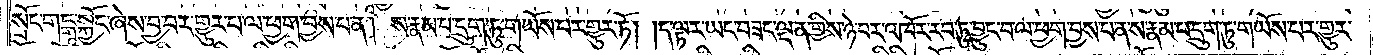སྲོང་གངྒཱ་སྐྱོང་ཞེས་བྱ་བར་གྱུར་པ་ལ་ཕྱག་བྱས་པ་ན། ས་རྣམ་པ་དྲུག་ཏུ་གཡོས་པར་གྱུར་ཏོ། །ད་ལྟར་ཡང་བཟང་ལྡན་གྱིས་ཉེ་བར་འཁོར་རབ་ཏུ་བྱུང་བ་ལ་ཕྱག་བྱས་པ་ན་ས་རྣམ་པ་དྲུག་ཏུ་གཡོས་པར་གྱུར་
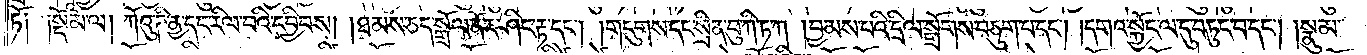ཏོ༑    ༑སྡོམ་ལ། ཀོའུ་ཌིནྱ་དང་རིལ་བའི་དབྱིབས། །ཐམས་ཅད་སྒྲོལ་ནོར་ཤིང་རྟ་དང༌། །གདུགས་དང་སྲིན་བུ་ཀི་ཏ་ཀ །བྱམས་པའི་དྲིལ་སྒྲོགས་བཅུག་པ་དང༌། །དགའ་སྐྱོང་ལ་དུ་བཏུང་བ་དང༌། །སྣུམ་
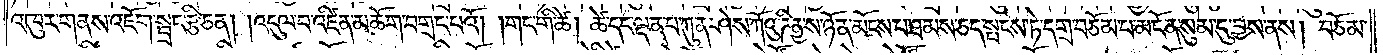འཁུར་གནས་འཇོག་སྦྲང་རྩི་ཅན། །འདུལ་བ་འཛིན་མཆོག་བགྲང་པའོ། །གང་གི་ཚེ། ཚེ་དང་ལྡན་པ་ཀུན་ཤེས་ཀོའུ་ཌིནྱ་ས་ཉོན་མོངས་པ་ཐམས་ཅད་སྤངས་ཏེ་དགྲ་བཅོམ་པ་མངོན་སུམ་དུ་བྱས་ནས། བཅོམ་
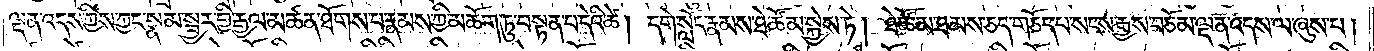ལྡན་འདས་ཀྱིས་ཀྱང་སྣམ་སྦྱར་གྱི་རྒྱལ་མཚན་ཐོགས་པ་རྣམས་ཀྱི་མཆོག་ཏུ་བསྟན་པ་དེའི་ཚེ། དགེ་སློང་རྣམས་ཐེ་ཚོམ་སྐྱེས་ཏེ། ཐེ་ཚོམ་ཐམས་ཅད་གཅོད་པ་སངས་རྒྱས་བཅོམ་ལྡན་འདས་ལ་ཞུས་པ།
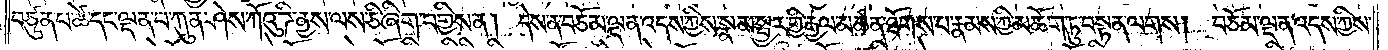བཙུན་པ་ཚེ་དང་ལྡན་པ་ཀུན་ཤེས་ཀོའུ་ཌི་ནྱས་ལས་ཅི་ཞིག་བགྱིས་ན། དེས་ན་བཅོམ་ལྡན་འདས་ཀྱིས་སྣམ་སྦྱར་གྱི་རྒྱལ་མཚན་ཐོགས་པ་རྣམས་ཀྱི་མཆོག་ཏུ་བསྟན་ལགས། བཅོམ་ལྡན་འདས་ཀྱིས་
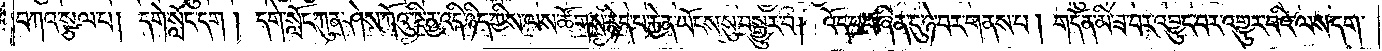བཀའ་སྩལ་པ། དགེ་སློང་དག །དགེ་སློང་ཀུན་ཤེས་ཀོའུ་ཌི་ནྱ་འདི་ཉིད་ཀྱིས་ལས་ཚོགས་རྙེད་པ་རྐྱེན་ཡོངས་སུ་བསྒྱུར་བ། འོད་པ་བཞིན་དུ་ཉེ་བར་གནས་པ། གདོན་མི་ཟ་བར་འབྱུང་བར་འགྱུར་བའི་ལས་དག་
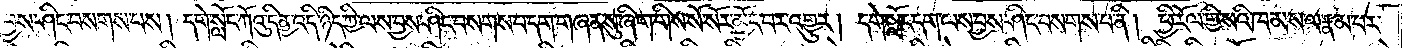བྱས་ཤིང་བསགས་པས། དགེ་སློང་ཀོའུ་དིནྱ་འདི་ཉིད་ཀྱི་ལས་བྱས་ཤིང་བསགས་པ་དག་གཞན་སུ་ཞིག་གིས་སོ་སོར་མྱོང་བར་འགྱུར། དགེ་སློང་དག་ལས་བྱས་ཤིང་བསགས་པ་ནི། ཕྱི་རོལ་གྱི་སའི་ཁམས་ལ་རྣམ་པར་
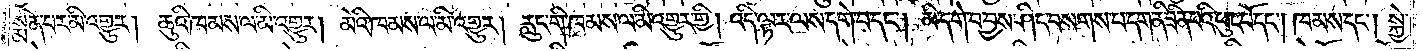སྨིན་པར་མི་འགྱུར། ཆུའི་ཁམས་ལ་མི་འགྱུར། མེའི་ཁམས་ལ་མི་འགྱུར། རླུང་གི་ཁམས་ལ་མི་འགྱུར་གྱི། འདི་ལྟར་ལས་དགེ་བ་དང༌། མི་དགེ་བ་བྱས་ཤིང་བསགས་པ་དག་ནི་ཟིན་པའི་ཕུང་པོ་དང༌། ཁམས་དང༌། སྐྱེ་
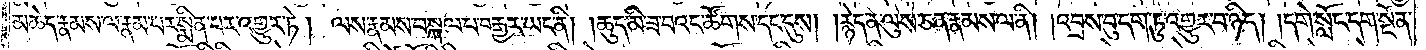མཆེད་རྣམས་ལ་རྣམ་པར་སྨིན་པར་འགྱུར་ཏེ། ལས་རྣམས་བསྐལ་པ་བརྒྱར་ཡང་ནི། །ཆུད་མི་ཟ་བའང་ཚོགས་དང་དུས། །རྙེད་ན་ལུས་ཅན་རྣམས་ལ་ནི། །འབྲས་བུ་དག་ཏུ་འགྱུར་བ་ཉིད། །དགེ་སློང་དག་སྔོན་
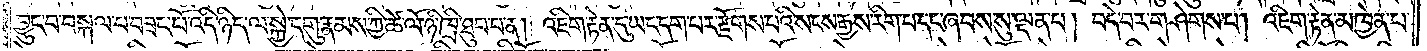བྱུང་བ་བསྐལ་པ་བཟང་པོ་འདི་ཉིད་ལ་སྐྱེ་དགུ་རྣམས་ཀྱི་ཚེ་ལོ་ཉི་ཁྲི་ཐུབ་པ་ན། འཇིག་རྟེན་དུ་ཡང་དག་པར་རྫོགས་པའི་སངས་རྒྱས་རིག་པ་དང་ཞབས་སུ་ལྡན་པ། བདེ་བར་གཤེགས་པ། འཇིག་རྟེན་མཁྱེན་པ་
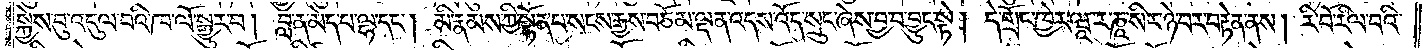སྐྱེས་བུ་འདུལ་བའི་ཁ་ལོ་སྒྱུར་བ། བླ་ན་མེད་པ་ལྷ་དང༌། མི་རྣམས་ཀྱི་སྟོན་པ་སངས་རྒྱས་བཅོམ་ལྡན་འདས་འོད་སྲུང་ཞེས་བྱ་བ་བྱུང་སྟེ། དེ་གྲོང་ཁྱེར་ཝཱ་ར་ཎཱ་སིར་ཉེ་བར་བརྟེན་ནས། རི་བོ་རིལ་བའི་
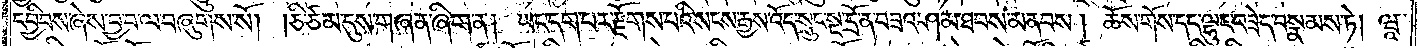དབྱིབས་ཞེས་བྱ་བ་ལ་བཞུགས་སོ། །ཅི་ཙམ་དུས་གཞན་ཞིག་ན། ཡང་དག་པར་རྫོགས་པའི་སངས་རྒྱས་འོད་སྲུང་སྔ་དྲོ་ན་བཟའ་ཤམ་ཐབས་མནབས། ཆོས་གོས་དང་ལྷུང་བཟེད་བསྣམས་ཏེ། ཝཱ་
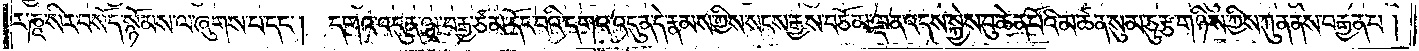ར་ཎཱ་སིར་བསོད་སྙོམས་ལ་ཞུགས་པ་དང༌། དགའ་འདུན་ལྔ་བརྒྱ་ཙམ་དོང་བའི་དགའ་འདུན་དེ་རྣམས་ཀྱིས་སངས་རྒྱས་བཅོམ་ལྡན་འདས་སྐྱེས་བུ་ཆེན་པོའི་མཚན་སུམ་ཅུ་རྩ་གཉིས་ཀྱིས་ཀུན་ནས་བརྒྱན་པ།
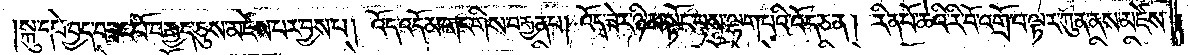སྐུ་དཔེ་བྱད་བཟང་པོ་བརྒྱད་ཅུས་མཛེས་པར་བྱས་པ། འོད་འདོམ་གང་གིས་བརྒྱན་པ། འོད་ཟེར་ཉི་མ་སྟོང་པས་ལྷག་པའི་འོད་ཅན། རིན་པོ་ཆེའི་རི་བོ་འགྲོ་བ་ལྟར་ཀུན་ནས་མཛེས་
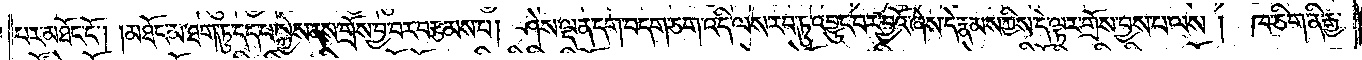པར་མཐོང་ངོ༌། །མཐོང་མ་ཐག་ཏུ་དད་པ་སྐྱེས་ནས་གྲོས་བྱ་བར་བརྩམས་པ། ཤེས་ལྡན་དག་བདག་ཅག་འདི་ལས་རབ་ཏུ་འབྱུང་བར་བྱའོ་ཞེས་དེ་རྣམས་ཀྱིས་དེ་ལྟར་གྲོས་བྱས་པ་ལས། ཁ་ཅིག་ནི་རྒྱ་
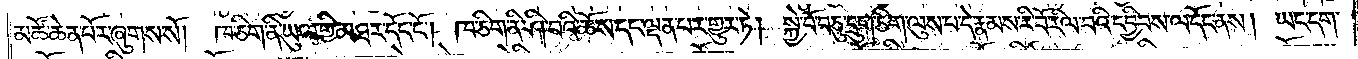མཚོ་ཆེན་པོར་ཞུགས་སོ། ཁ་ཅིག་ནི་ཡུལ་གྱི་མཐར་དོང་ངོ༌། ཁ་ཅིག་ནི་ཤི་བའི་ཆོས་དང་ལྡན་པར་གྱུར་ཏེ། སྐྱེ་བོ་བཅུ་དྲུག་ཅིག་ལུས་པ་དེ་རྣམས་རི་བོ་རིལ་བའི་དབྱིབས་ལ་དོང་ནས། ཡང་དག་
